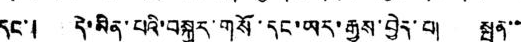དང་། དེ་མིན་པའི་བསྐྱར་གསོ་དང་ཡར་རྒྱས་བྱེད་པ། སྤུན་་་
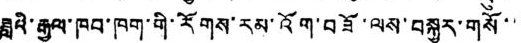ཟླའི་རྒྱལ་ཁབ་ཁག་གི་རོགས་རམ་འོག་བཟོ་ལས་བསྐྱར་གསོ་་་
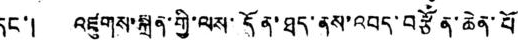དང་། འཛུགས་སྐྲུན་ཀྱི་ལས་དོན་ཐད་ནས་འབད་བརྩོན་ཆེན་པོ་
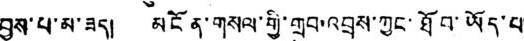བྱས་པ་མ་ཟད། མངོན་གསལ་གྱི་གྲུབ་འབྲས་ཀྱང་ཐོབ་ཡོད་པ་
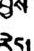རེད།
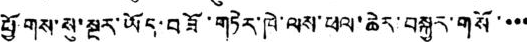ཕྱོགས་སུ་སྔར་ཡོད་བཟོ་གཏེར་ཁེ་ལས་ཕལ་ཆེར་བསྐྱར་གསོ་་་་
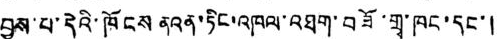བྱས་པ་དེའི་ཁོངས ནའན་ཏིང་འཁལ་འཐག་བཟོ་གྲྭ་ཁང་དང་།
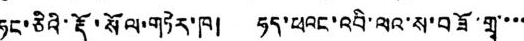ཧུང་ཅིའི་རྡོ་སོལ་གཏེར་ཁ། ཧད་ཕའང་འབི་ལའ་ས་བཟོ་གྲྭ་་་་
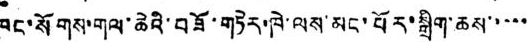ཁང་སོགས་གལ་ཆེའི་བཟོ་གཏེར་ཁེ་ལས་མང་པོར་སྒྲིག་ཆས་་་་་
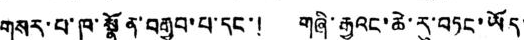གསར་པ་ཁ་སྣོན་བརྒྱབ་པ་དང་། གཞི་རྒྱའང་ཆེ་རུ་བཏང་ཡོད་
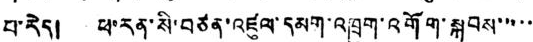པ་རེད། ཕ་རན་སི་བཙན་འཛུལ་དམག་འཁྲུག་འགོག་སྐབས་་་་་
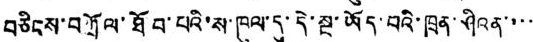བཅིངས་བཀྲོལ་ཐོབ་པའི་ས་ཁུལ་དུ་དེ་སྔ་ཡོད་པའི་ཁྲན་ཤིའན་་་་
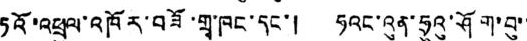ཏའོ་འཕྲུལ་འཁོར་བཟོ་གྲྭ་ཁང་དང་། ཧའང་འུན་ཧྲུའུ་ཤོག་བུ་་
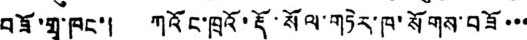བཟོ་གྲྭ་ཁང་། ཀའོང་ཁྲའོ་རྡོ་སོལ་གཏེར་ཁ་སོགས་བཟོ་་་
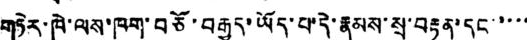གཏེར་ཁེ་ལས་ཁག་བཅོ་བརྒྱད་ཡོད་པ་དེ་རྣམས་སྲ་བརྟན་དང་་་་་
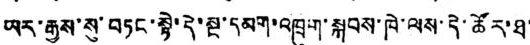ཡར་རྒྱས་སུ་བཏང་སྟེ་དེ་སྔ་དམག་འཁྲུག་སྐབས་ཁེ་ལས་དེ་ཚོར་ཐ་
